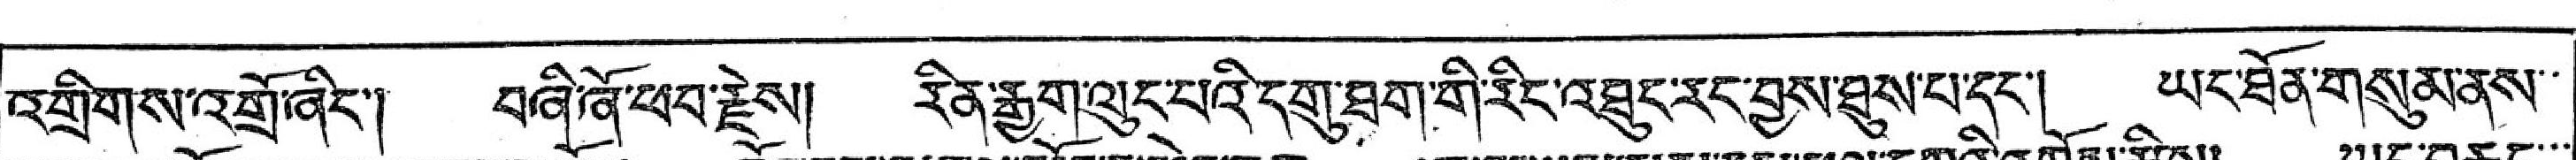འགྲིགས་འགྲོ་ཞིང་། བཞི་ཞོ་ཕབ་རྗེས། རིན་རྒྱག་ལུང་པའི་དགུ་ཐག་གི་རིང་འཐུང་རང་བྱས་ཐུས་པ་དང་། ཡང་ཐོན་གསུམ་ནས་་
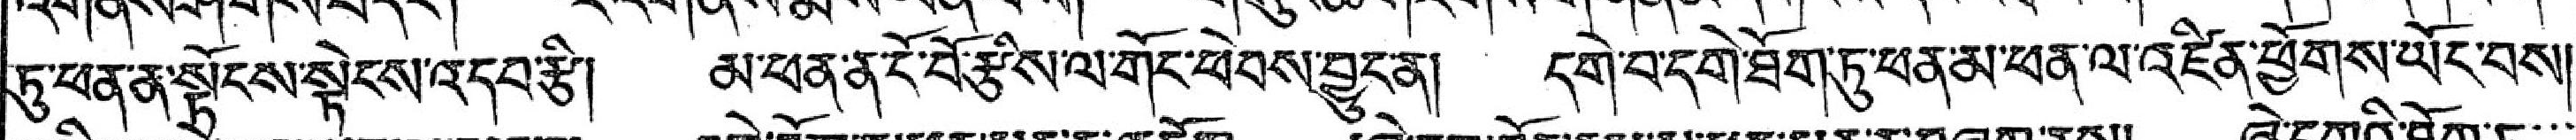ཏུ་ཕན་ན་སྟོངས་སྟེངས་འདབ་རྩི། མ་ཕན་ན་ངོ་བོ་རྩིས་ལ་གོང་ཕེབས་བྱུང་ན། དགེ་བ་དགེ་ཐོག་ཏུ་ཕན་མ་ཕན་ལ་འཛིན་ཕྱོགས་ཡོང་བས།
